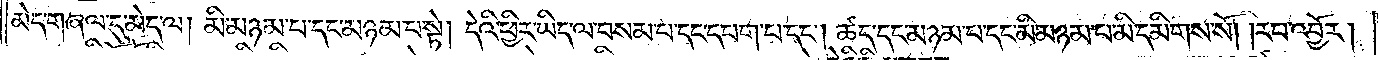མེད་གཞལ་དུ་མེད་ལ། མི་མཉམ་པ་དང་མཉམ་པ་སྟེ། དེའི་ཕྱིར་ཡིད་ལ་བསམ་པ་དང་དཔག་པ་དང༌། ཚད་དང་མཉམ་པ་དང་མི་མཉམ་པ་མི་དམིགས་སོ། །རབ་འབྱོར།
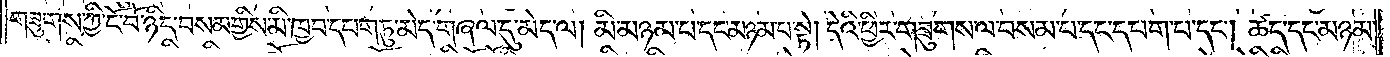གཟུགས་ཀྱི་ངོ་བོ་ཉིད་བསམ་གྱིས་མི་ཁྱབ་དཔག་ཏུ་མེད་གཞལ་དུ་མེད་ལ། མི་མཉམ་པ་དང་མཉམ་པ་སྟེ། དེའི་ཕྱིར་གཟུགས་ལ་བསམ་པ་དང་དཔག་པ་དང༌། ཚད་དང་མཉམ་
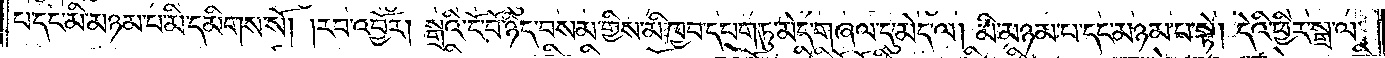པ་དང་མི་མཉམ་པ་མི་དམིགས་སོ། །རབ་འབྱོར། སྒྲའི་ངོ་བོ་ཉིད་བསམ་གྱིས་མི་ཁྱབ་དཔག་ཏུ་མེད་གཞལ་དུ་མེད་ལ། མི་མཉམ་པ་དང་མཉམ་པ་སྟེ། དེའི་ཕྱིར་སྒྲ་ལ་
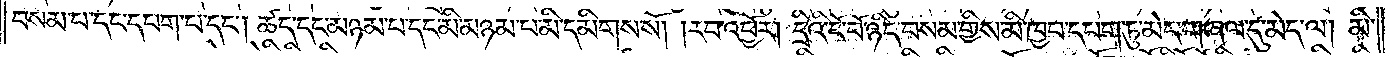བསམ་པ་དང་དཔག་པ་དང༌། ཚད་དང་མཉམ་པ་དང་མི་མཉམ་པ་མི་དམིགས་སོ། །རབ་འབྱོར། དྲིའི་ངོ་བོ་ཉིད་བསམ་གྱིས་མི་ཁྱབ་དཔག་ཏུ་མེད་གཞལ་དུ་མེད་ལ། མི་
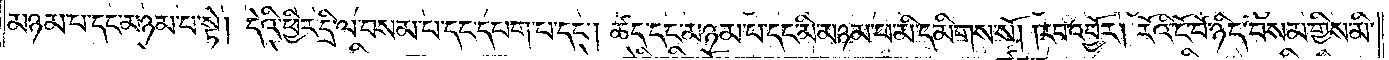མཉམ་པ་དང་མཉམ་པ་སྟེ། དེའི་ཕྱིར་དྲི་ལ་བསམ་པ་དང་དཔག་པ་དང༌། ཚད་དང་མཉམ་པ་དང་མི་མཉམ་པ་མི་དམིགས་སོ། །རབ་འབྱོར། རོའི་ངོ་བོ་ཉིད་བསམ་གྱིས་མི་
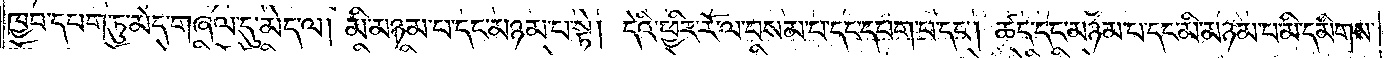ཁྱབ་དཔག་ཏུ་མེད་གཞལ་དུ་མེད་ལ། མི་མཉམ་པ་དང་མཉམ་པ་སྟེ། དེའི་ཕྱིར་རོ་ལ་བསམ་པ་དང་དཔག་པ་དང༌། ཚད་དང་མཉམ་པ་དང་མི་མཉམ་པ་མི་དམིགས་
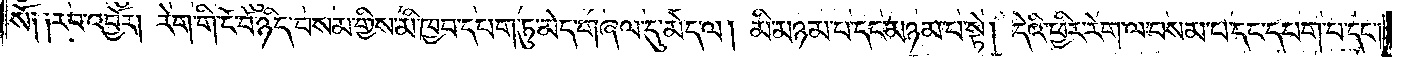སོ༑ ༑རབ་འབྱོར། རེག་གི་ངོ་བོ་ཉིད་བསམ་གྱིས་མི་ཁྱབ་དཔག་ཏུ་མེད་གཞལ་དུ་མེད་ལ། མི་མཉམ་པ་དང་མཉམ་པ་སྟེ། དེའི་ཕྱིར་རེག་ལ་བསམ་པ་དང་དཔག་པ་དང༌།
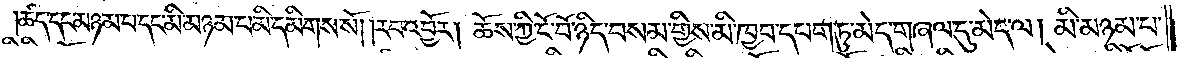ཚད་དང་མཉམ་པ་དང་མི་མཉམ་པ་མི་དམིགས་སོ། །རབ་འབྱོར། ཆོས་ཀྱི་ངོ་བོ་ཉིད་བསམ་གྱིས་མི་ཁྱབ་དཔག་ཏུ་མེད་གཞལ་དུ་མེད་ལ། མི་མཉམ་པ་
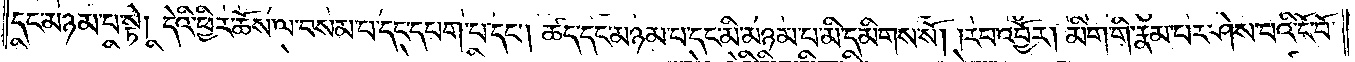དང་མཉམ་པ་སྟེ། དེའི་ཕྱིར་ཆོས་ལ་བསམ་པ་དང་དཔག་པ་དང༌། ཚད་དང་མཉམ་པ་དང་མི་མཉམ་པ་མི་དམིགས་སོ། །རབ་འབྱོར། མིག་གི་རྣམ་པར་ཤེས་པའི་ངོ་བོ་
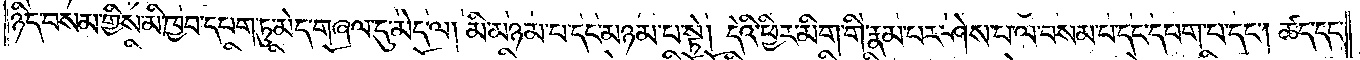ཉིད་བསམ་གྱིས་མི་ཁྱབ་དཔག་ཏུ་མེད་གཞལ་དུ་མེད་ལ། མི་མཉམ་པ་དང་མཉམ་པ་སྟེ། དེའི་ཕྱིར་མིག་གི་རྣམ་པར་ཤེས་པ་ལ་བསམ་པ་དང་དཔག་པ་དང༌། ཚད་དང་
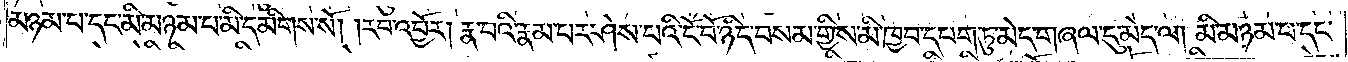མཉམ་པ་དང་མི་མཉམ་པ་མི་དམིགས་སོ། །རབ་འབྱོར། རྣ་བའི་རྣམ་པར་ཤེས་པའི་ངོ་བོ་ཉིད་བསམ་གྱིས་མི་ཁྱབ་དཔག་ཏུ་མེད་གཞལ་དུ་མེད་ལ། མི་མཉམ་པ་དང་
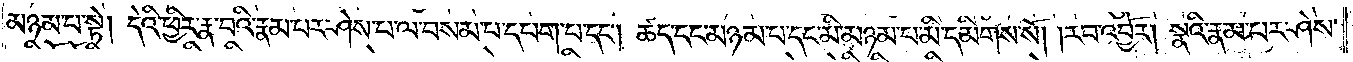མཉམ་པ་སྟེ། དེའི་ཕྱིར་རྣ་བའི་རྣམ་པར་ཤེས་པ་ལ་བསམ་པ་དང་དཔག་པ་དང༌། ཚད་དང་མཉམ་པ་དང་མི་མཉམ་པ་མི་དམིགས་སོ། །རབ་འབྱོར། སྣའི་རྣམ་པར་ཤེས་
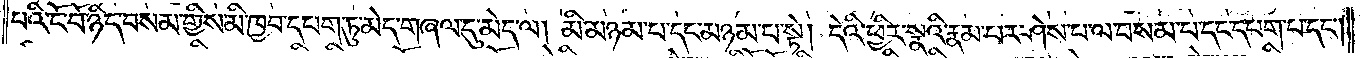པའི་ངོ་བོ་ཉིད་བསམ་གྱིས་མི་ཁྱབ་དཔག་ཏུ་མེད་གཞལ་དུ་མེད་ལ། མི་མཉམ་པ་དང་མཉམ་པ་སྟེ། དེའི་ཕྱིར་སྣའི་རྣམ་པར་ཤེས་པ་ལ་བསམ་པ་དང་དཔག་པ་དང༌།
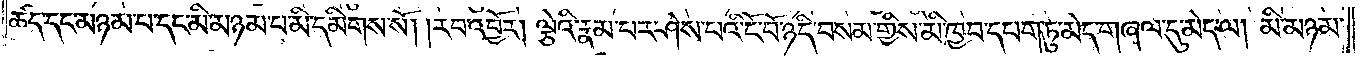ཚད་དང་མཉམ་པ་དང་མི་མཉམ་པ་མི་དམིགས་སོ། །རབ་འབྱོར། ལྕེའི་རྣམ་པར་ཤེས་པའི་ངོ་བོ་ཉིད་བསམ་གྱིས་མི་ཁྱབ་དཔག་ཏུ་མེད་གཞལ་དུ་མེད་ལ། མི་མཉམ་
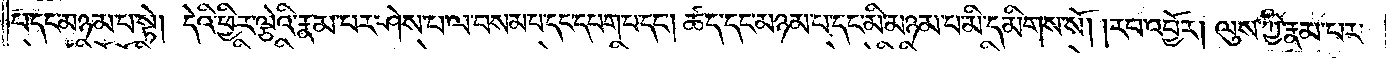པ་དང་མཉམ་པ་སྟེ། དེའི་ཕྱིར་ལྕེའི་རྣམ་པར་ཤེས་པ་ལ་བསམ་པ་དང་དཔག་པ་དང༌། ཚད་དང་མཉམ་པ་དང་མི་མཉམ་པ་མི་དམིགས་སོ། །རབ་འབྱོར། ལུས་ཀྱི་རྣམ་པར་
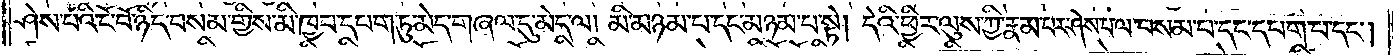ཤེས་པའི་ངོ་བོ་ཉིད་བསམ་གྱིས་མི་ཁྱབ་དཔག་ཏུ་མེད་གཞལ་དུ་མེད་ལ། མི་མཉམ་པ་དང་མཉམ་པ་སྟེ། དེའི་ཕྱིར་ལུས་ཀྱི་རྣམ་པར་ཤེས་པ་ལ་བསམ་པ་དང་དཔག་པ་དང༌།
